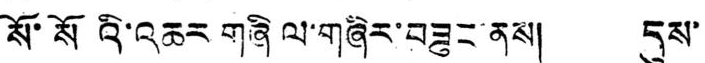སོ་སོའི་འཆར གཞི ལ་གཞིར་བཟུང་ནས། དུས་
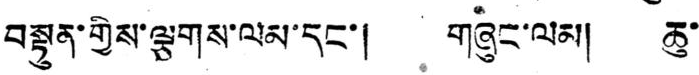བསྟུན་གྱིས་ལྕགས་ལམ་དང་། གཞུང་ལམ། ཆུ་
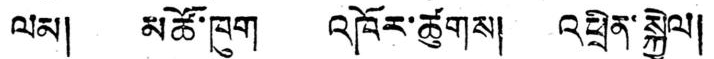ལམ། མཚོ་ཁུག འཁོར་ཚུགས། འཕྲིན་སྐྱེལ།
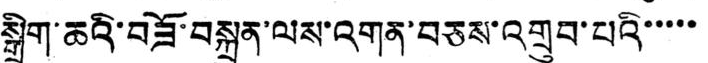སྒྲིག་ཆའི་བཟོ་བསྐྲུན་ལས་འགན་བཅས་འགྲུབ་པའི་་་་་
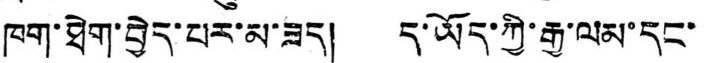ཁག་ཐེག་བྱེད་པར་མ་ཟད། ད་ཡོད་ཀྱི་རྒྱ་ལམ་དང་
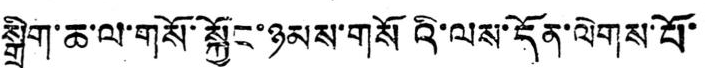སྒྲིག་ཆ་ལ་གསོ་སྐྱོང་ཉམས་གསོའི་ལས་དོན་ལེགས་པོ་
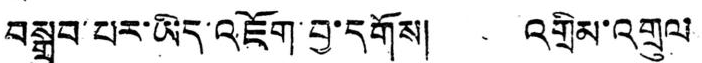བསྒྲུབ་པར་ཡིད་འཇོག་བྱ་དགོས། འགྲིམ་འགྲུལ
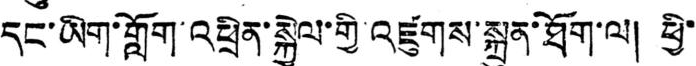དང་ཡིག་གློག་འཕྲིན་སྐྱེལ་གྱི་འཛུགས་སྐྲུན་ཐོག་ལ། ཕྱི་
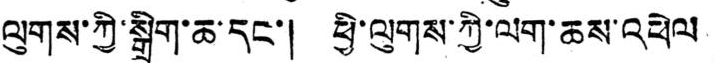ལུགས་ཀྱི་སྒྲིག་ཆ་དང་། སྤྱི་ལུགས་ཀྱི་ལག་ཆས་འཕེལ
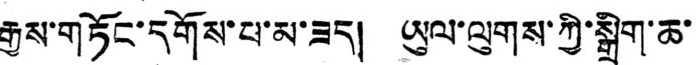རྒྱས་གཏོང་དགོས་པ་མ་ཟད། ཡུལ་ལུགས་ཀྱི་སྒྲིག་ཆ་
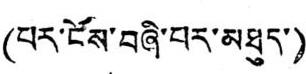(པར་ངོས་བཞི་པར་མཐུད་)
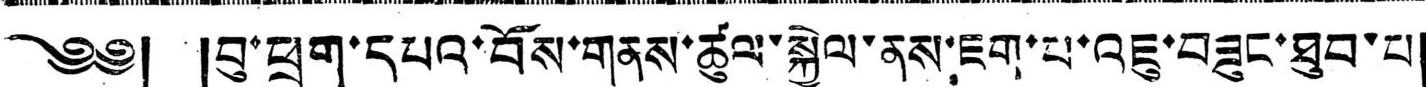༄༅། །བུ་ཕྲུག་དཔའ་བོས་གནས་ཚུལ་སྐྱེལ་ནས་ཇག་པ་འཇུ་བཟུང་ཐུབ་པ།
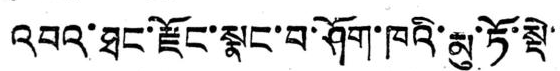འབའ་ཐང་རྫོང་སྣང་བ་ཤོག་ཁའི་མུ་ཏོ་སྡེ་་
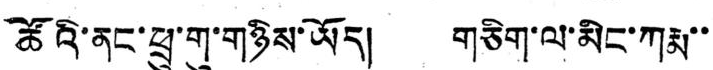ཚོའི་ནང་ཕྲུ་གུ་གཉིས་ཡོད། གཅིག་ལ་མིང་ཀརྨ་་
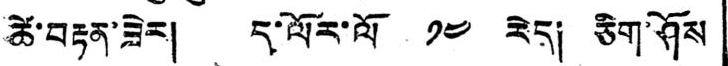ཚེ་བརྟན་ཟེར། ད་ལོར་ལོ ༡༤ རེད། ཅིག་ཤོས
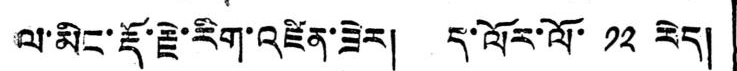ལ་མིང་རྡོ་རྗེ་རིག་འཛིན་ཟེར། ད་ལོར་ལོ་ ༡༢ རེད།
